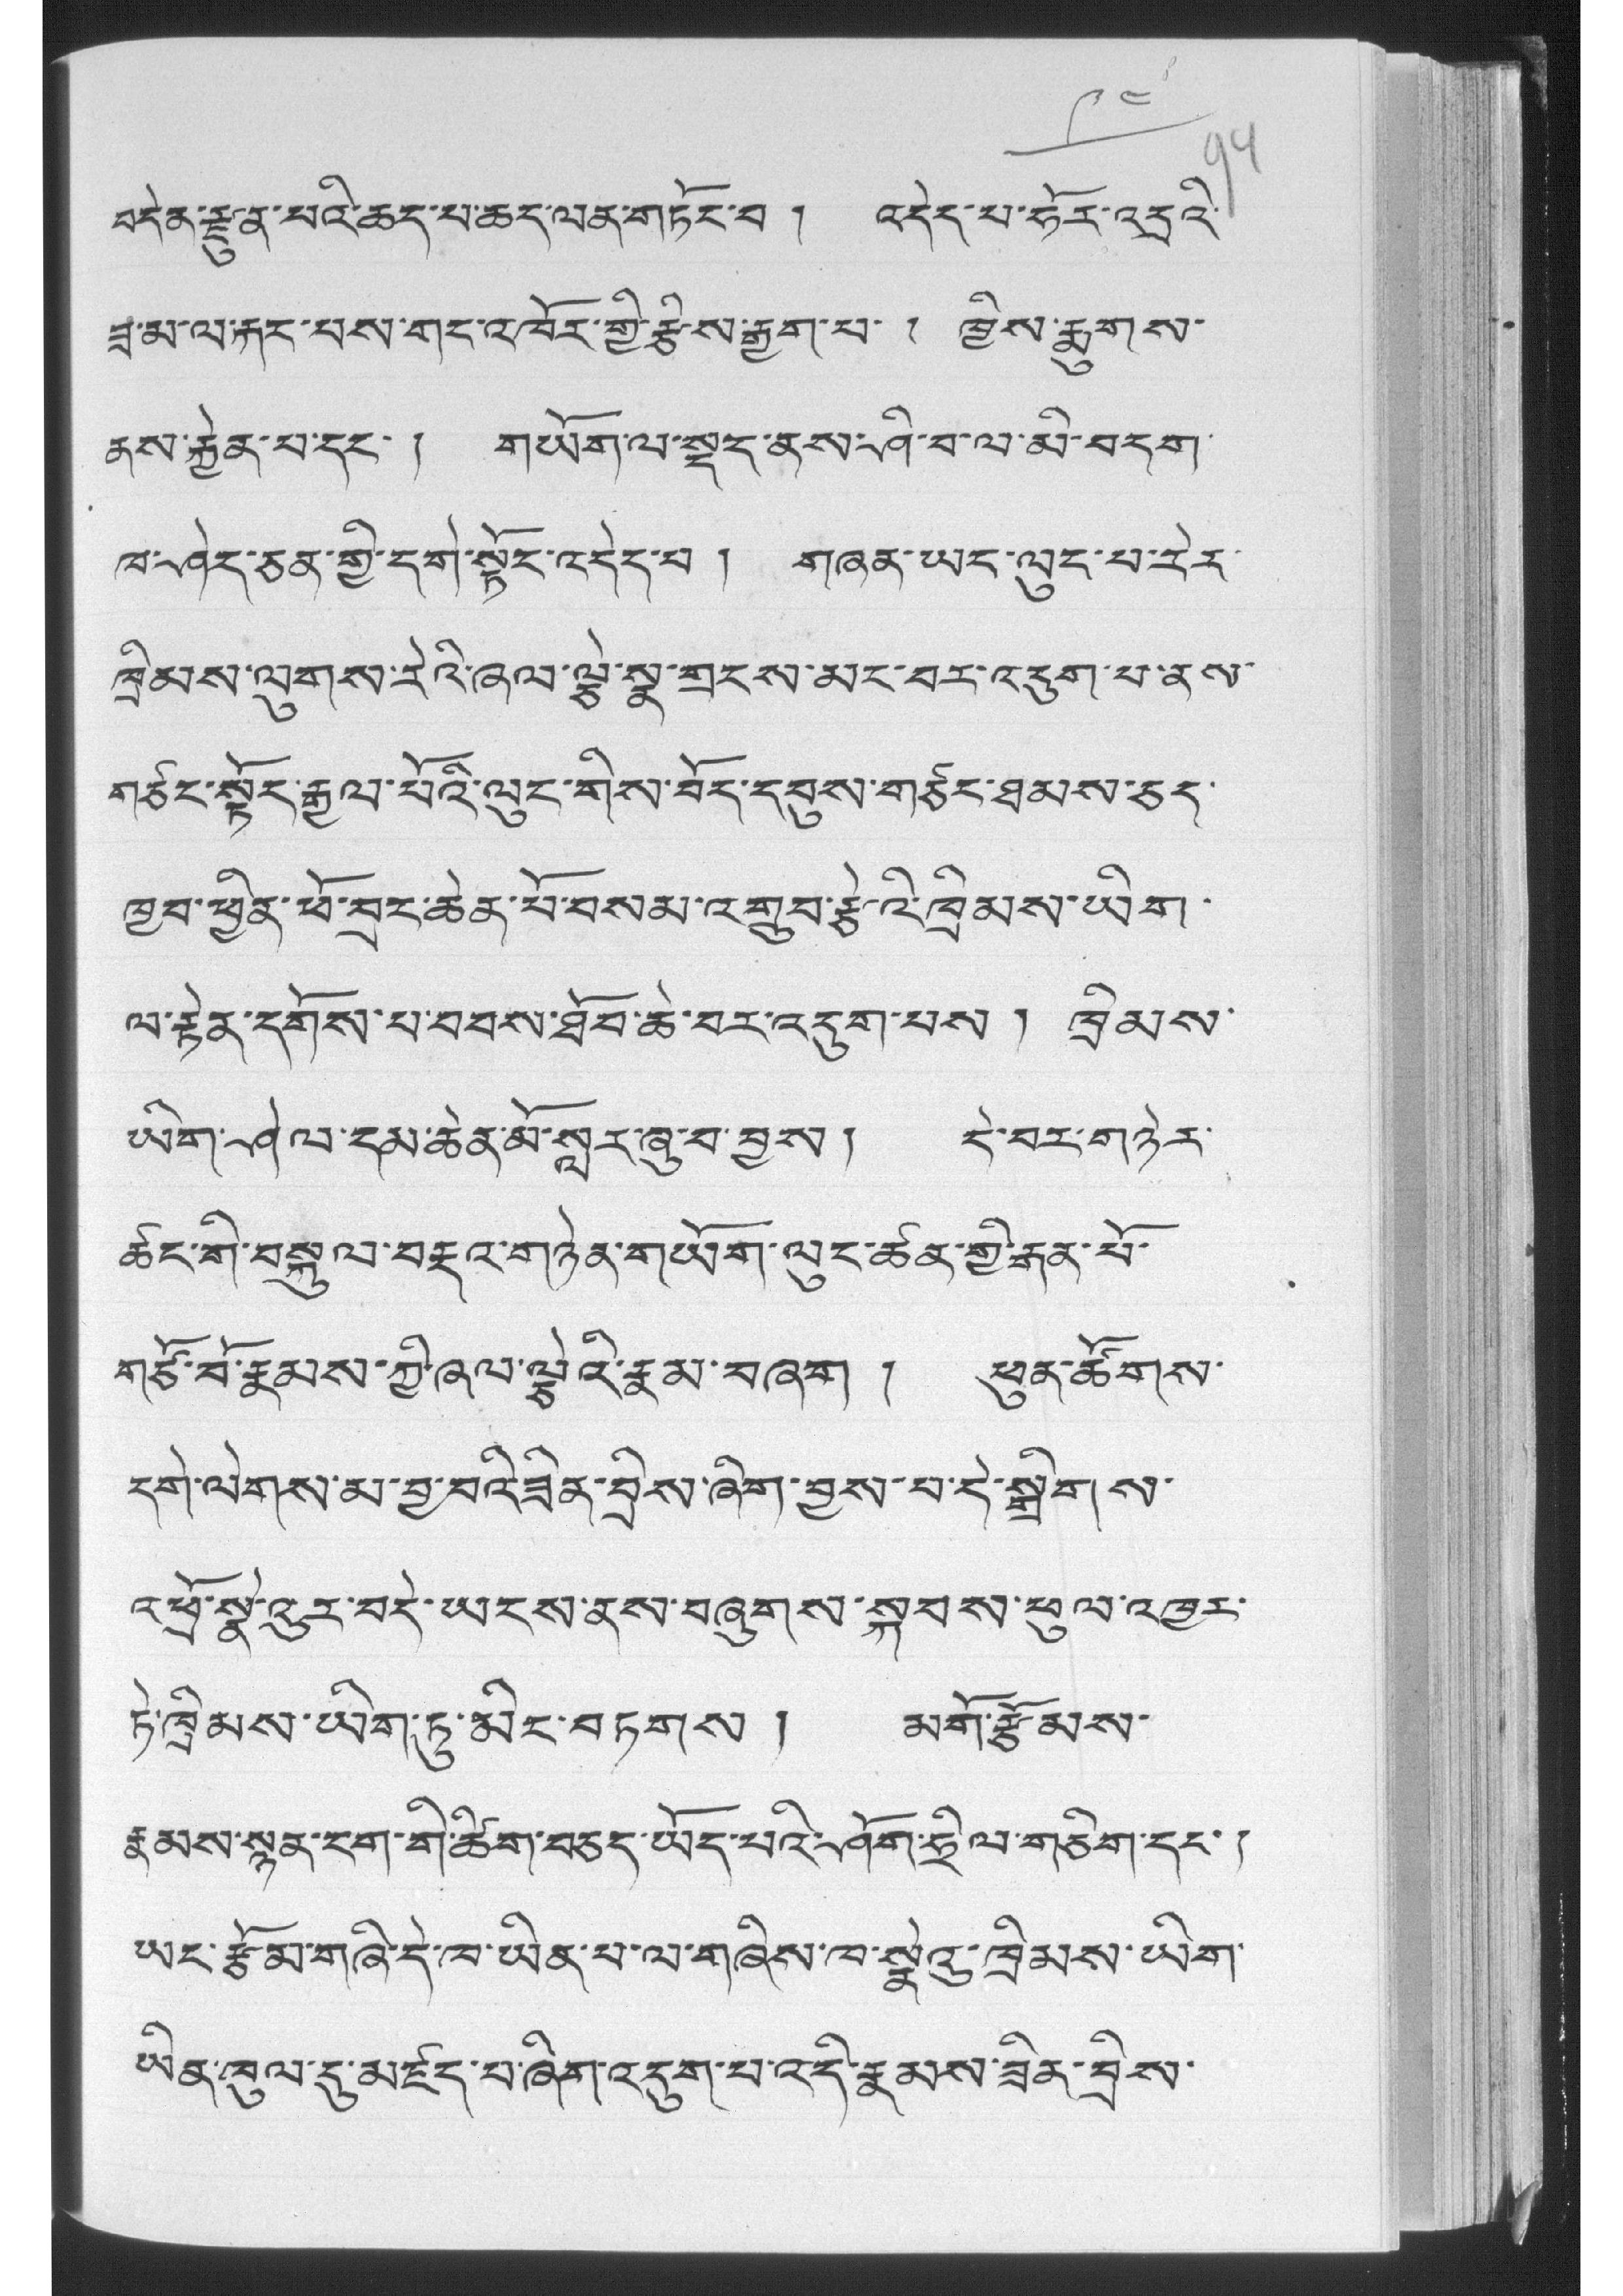༩༤
བདེན་རྫུན་པའི་ཆད་པ་ཆད་ལན་གཏོང་བ ། འདེད་པ་ཧོར་འདྲའི་
ཟ་མ་ལ་རྐང་པས་གང་འཁོར་གྱི་རྩིས་རྒྱག་པ་ ། ཁྱིས་རྨུགས་
ནས་རྐྱེན་པ་དང་ ། གཡོག་ལ་སྡད་ནས་ཤི་བ་ལ་མི་བདག་
ཁ་ཤེད་ཅན་གྱི་དགེ་སྟོང་འདེར་པ། གཞན་ཡར་ལུང་པ་རེར་
ཁྲིམས་ལུགས་རེའི་ཞལ་ལྕེ་སྣ་གྲངས་མང་བར་འདུག་པ་ནས་
གཅིང་སྟོར་རྒྱལ་པོའི་ལུང་གིས་བོད་དབུས་གཙིང་ཐམས་ཅད་
ཁྱབ་ཕྱིན་ཕོ་བྲང་ཆེན་པོ་བསམ་འགྲུབ་རྩེའི་ཁྲིམས་ཡིག་
ལ་རྟེན་དགོས་པ་བབས་ཐོབ་ཆེ་བར་འདུག་པས ། ཁྲིམས་
ཡིག་ཤེལ་དམ་ཆེན་མོ་སླར་ཞུ་བ་བྱས། དེ་བར་གཉེར་
ཚང་གི་བསྐུལ་བརྡའ་གཉེན་གཡོག་ལུང་ཚན་གྱི་རྒན་པོ་
གཙོ་བོ་རྣམས་ཀྱི་ཞལ་ལྕེའི་རྣམ་བཞག ། ཕུན་ཚོགས་
དགེ་ལེགས་མ་བྱ་བའི་ཟིན་བྲིས་ཞིག་བྱས་པ་དེ་སྒྲིགས་
འཕྲོ་སྣེ་འུར་བདེ་ཡངས་ནས་བཞུགས་སྐབས་ཕུལ་འཁྱར་
ཏེ་ཁྲིམས་ཡིག་ཏུ་མིང་བཏགས ། མགོ་རྩོམས་
རྣམས་སྙན་དག་གི་ཚིག་བཅད་ཡོད་པའི་ཤོག་ཧྲིལ་གཅིག་དང་།
ཡང་རྩོམ་གཞི་དེ་ལ་ཡིན་པ་ལ་གཞིས་ཁ་སྣེའུ་ཁྲིམས་ཡིག་
ཡིན་ཁུལ་དུ་མཛད་པ་ཞིག་འདུག་པ་འདི་རྣམས་ཟིན་བྲིས་
